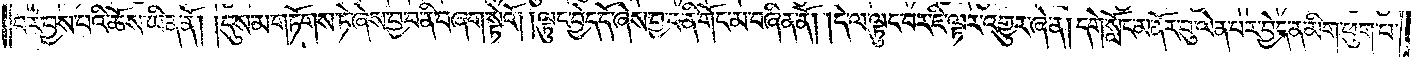པར་བྱས་པའི་ཆོས་ཡིན་ནོ། །དུས་མ་གཏོགས་ཏེ་ཞེས་བྱ་བ་ནི་གཞག་སྟེའོ། །ལྟུང་བྱེད་དོ་ཞེས་བྱ་བ་ནི་གོང་མ་བཞིན་ནོ། །དེ་ལ་ལྟུང་བར་ཇི་ལྟར་འགྱུར་ཞེ་ན། དགེ་སློང་མ་ནོར་བུ་ལེན་པར་བྱེད་ན་མིག་ཕུག་པ་
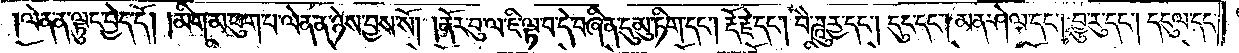ལེན་ན་ལྟུང་བྱེད་དོ། །མིག་མ་ཕུག་པ་ལེན་ན་ཉེས་བྱས་སོ། །ནོར་བུ་ལ་ཇི་ལྟ་བ་དེ་བཞིན་དུ་མུ་ཏིག་དང༌། རྡོ་རྗེ་དང༌། བཻ་ཌཱུཪྻ་དང༌། དུང་དང༌། མན་ཤེལ་དང༌། བྱུ་རུ་དང༌། དངུལ་དང༌།
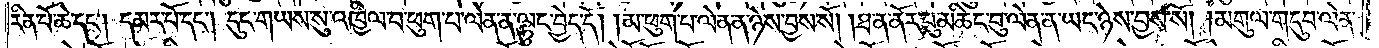རིན་པོ་ཆེ་དང༌། དམར་པོ་དང༌། དུང་གཡས་སུ་འཁྱིལ་བ་ཕུག་པ་ལེན་ན་ལྟུང་བྱེད་དོ། །མ་ཕུག་པ་ལེན་ན་ཉེས་བྱས་སོ། །ཐ་ན་ནོར་བུ་མཆིང་བུ་ལེན་ན་ཡང་ཉེས་བྱས་སོ། །མགུལ་གདུབ་ལེན་
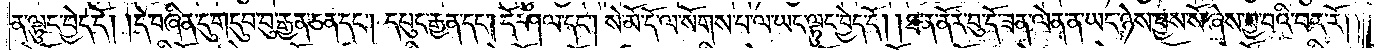ན་ལྟུང་བྱེད་དོ། །དེ་བཞིན་དུ་གདུབ་བུ་རྒྱན་ཅན་དང༌། དཔུང་རྒྱན་དང༌། དོ་ཤལ་དང༌། སེ་མོ་དོ་ལ་སོགས་པ་ལ་ཡང་ལྟུང་བྱེད་དོ། །ཐ་ན་ནོར་བུ་དོ་ཟན་ལེན་ན་ཡང་ཉེས་བྱས་སོ་ཞེས་བྱ་བའི་བར་རོ། །
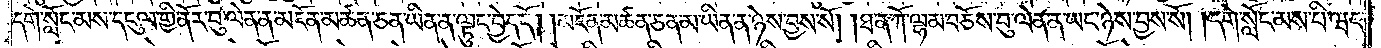དགེ་སློང་མས་དངུལ་གྱི་ནོར་བུ་ལེན་ན་མངོན་མཚན་ཅན་ཡིན་ན་ལྟུང་བྱེད་དོ། །མངོན་མཚན་ཅན་མ་ཡིན་ན་ཉེས་བྱས་སོ། །ཐ་ན་ཀོ་ལྷམ་བཅོས་བུ་ལེན་ན་ཡང་ཉེས་བྱས་སོ། །དགེ་སློང་མས་པི་ཝང་
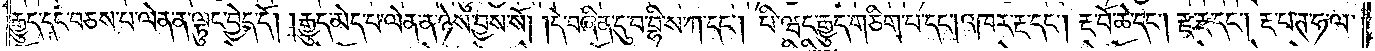རྒྱུད་དང་བཅས་པ་ལེན་ན་ལྟུང་བྱེད་དོ། །རྒྱུད་མེད་པ་ལེན་ན་ཉེས་བྱས་སོ། །དེ་བཞིན་དུ་བ་བྷི་ས་ཀ་དང༌། པི་ཝང་རྒྱུད་གཅིག་པ་དང༌། འཁར་རྔ་དང༌། རྔ་བོ་ཆེ་དང༌། རྫ་རྔ་དང༌། རྔ་པ་ཊ་ཧ་ལ་
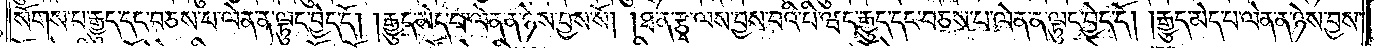སོགས་པ་རྒྱུད་དང་བཅས་པ་ལེན་ན་ལྟུང་བྱེད་དོ། །རྒྱུད་མེད་པ་ལེན་ན་ཉེས་བྱས་སོ། །ཐ་ན་རྩྭ་ལས་བྱས་པའི་པི་ཝང་རྒྱུད་དང་བཅས་པ་ལེན་ན་ལྟུང་བྱེད་དོ། །རྒྱུད་མེད་པ་ལེན་ན་ཉེས་བྱས་
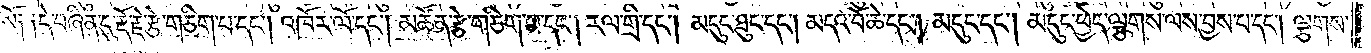སོ༑ ༑དེ་བཞིན་དུ་རྡོ་རྗེ་རྩེ་གཅིག་པ་དང༌། འཁོར་ལོ་དང༌། མཚོན་རྩེ་གཅིག་པ་དང༌། རལ་གྲི་དང༌། མདུང་ཐུང་དང༌། མདའ་བོ་ཆེ་དང༌། མདུང་དང༌། མདུང་ཕྱེད་ལྕགས་ལས་བྱས་པ་དང༌། ལྕགས་
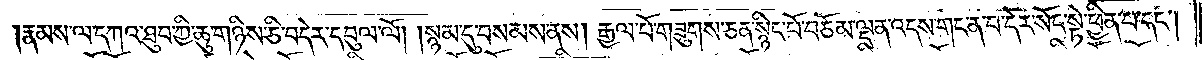རྣམས་ལ་དཀའ་ཐུབ་ཀྱི་ཆུ་གཉིས་ཅི་བདེར་དབུལ་ལོ། །སྙམ་དུ་བསམས་ནས། རྒྱལ་པོ་གཟུགས་ཅན་སྙིང་པོ་བཅོམ་ལྡན་འདས་གང་ན་བ་དེར་སོང་སྟེ་ཕྱིན་པ་དང༌།
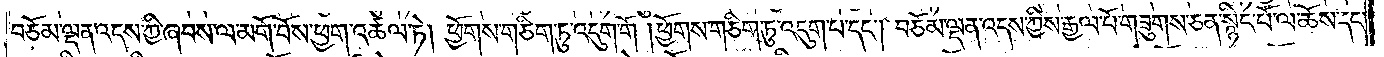བཅོམ་ལྡན་འདས་ཀྱི་ཞབས་ལ་མགོ་བོས་ཕྱག་འཚལ་ཏེ། ཕྱོགས་གཅིག་ཏུ་འདུག་གོ །ཕྱོགས་གཅིག་ཏུ་འདུག་པ་དང༌། བཅོམ་ལྡན་འདས་ཀྱིས་རྒྱལ་པོ་གཟུགས་ཅན་གྱི་སྙིང་པོ་ལ་ཆོས་དང་
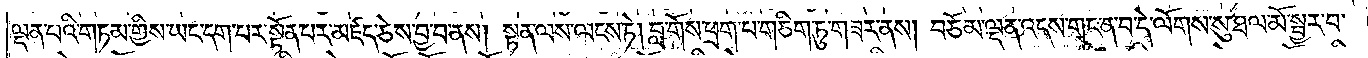ལྡན་པའི་གཏམ་གྱིས་ཡང་དག་པར་སྟོན་པར་མཛད་ཅེས་བྱ་བ་ནས། སྟན་ལས་ལངས་ཏེ། བླ་གོས་ཕྲག་པ་གཅིག་ཏུ་གཟར་ནས། བཅོམ་ལྡན་འདས་གང་ན་བ་དེ་ལོགས་སུ་ཐལ་མོ་སྦྱར་བ་
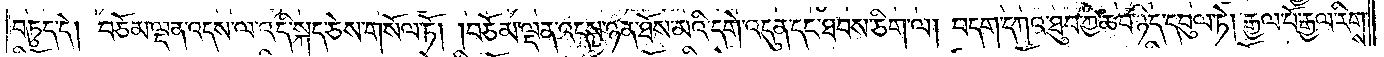བཏུད་དེ། བཅོམ་ལྡན་འདས་ལ་འདི་སྐད་ཅེས་གསོལ་ཏོ། །བཅོམ་ལྡན་འདས་ཉན་ཐོས་མའི་དགེ་འདུན་དང་ཐབས་ཅིག་ལ། བདག་དཀའ་ཐུབ་ཀྱི་ཆབ་ཉིད་དབུལ་ཏེ། རྒྱལ་པོ་རྒྱལ་རིགས་
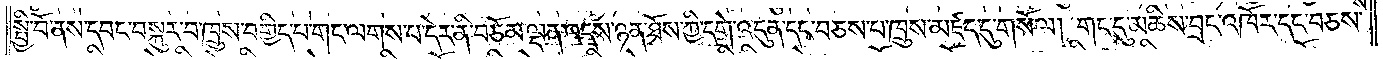སྤྱི་བོ་ནས་དབང་བསྐུར་བ་ཁྲུས་བགྱིད་པ་གང་ལགས་པ་དེར་ནི་བཅོམ་ལྡན་འདས་ཉན་ཐོས་ཀྱི་དགེ་འདུན་དང་བཅས་པ་ཁྲུས་མཛད་དུ་གསོལ། གང་དུ་མཆིས་བྲང་འཁོར་དང་བཅས་
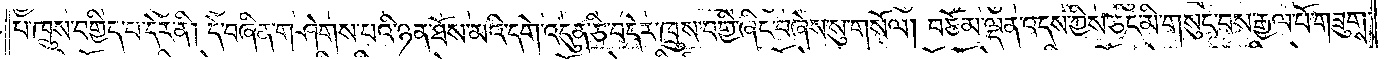པ་ཁྲུས་བགྱིད་པ་དེར་ནི། དེ་བཞིན་གཤེགས་པའི་ཉན་ཐོས་མའི་དགེ་འདུན་ཅི་བདེར་ཁྲུས་བགྱི་ཞིང་བཞེས་སུ་གསོལ། བཅོམ་ལྡན་འདས་ཀྱིས་ཅང་མི་གསུང་བས་རྒྱལ་པོ་གཟུགས་
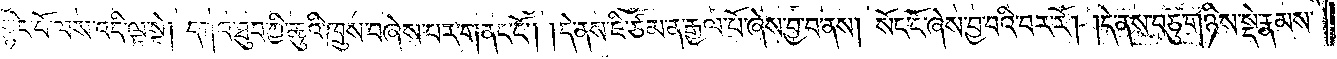སྙིང་པོ་ལས་འདི་ལྟ་སྟེ། དཀའ་ཐུབ་ཀྱི་ཆུའི་ཁྲུས་བཞེས་པར་གནང་ངོ༌། །དེ་ནས་ཇི་ཙམ་ན་རྒྱལ་པོ་ཞེས་བྱ་བ་ནས། སོང་ངོ་ཞེས་བྱ་བའི་བར་རོ། །དེ་ནས་བཅུ་གཉིས་སྡེ་རྣམས་
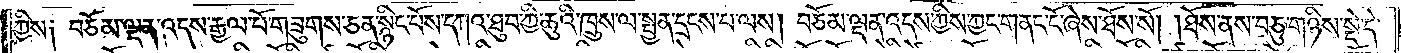ཀྱིས༑ བཅོམ་ལྡན་འདས་རྒྱལ་པོ་གཟུགས་ཅན་སྙིང་པོས་དཀའ་ཐུབ་ཀྱི་ཆུའི་ཁྲུས་ལ་སྤྱན་དྲངས་པ་ལས། བཅོམ་ལྡན་འདས་ཀྱིས་ཀྱང་གནང་ངོ་ཞེས་ཐོས་སོ། །ཐོས་ནས་བཅུ་གཉིས་སྡེ་དེ་
